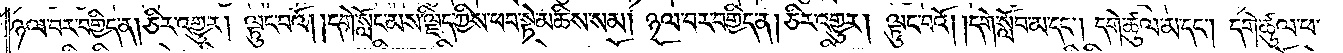ཉལ་བར་བགྱིད་ན། ཅིར་འགྱུར། ལྟུང་བའོ། །དགེ་སློང་མས་ལྗིད་ཀྱིས་ཕབ་སྟེ་མཆིས་སམ། ཉལ་བར་བགྱིད་ན། ཅིར་འགྱུར། ལྟུང་བའོ། །དགེ་སློབ་མ་དང༌། དགེ་ཚུལ་མ་དང༌། དགེ་ཚུལ་ཕ་
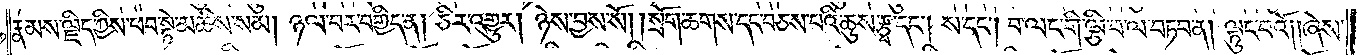རྣམས་ལྗིད་ཀྱིས་ཕབ་སྟེ་མཆིས་སམ། ཉལ་བར་བགྱིད་ན། ཅིར་འགྱུར། ཉེས་བྱས་སོ། །སྲོག་ཆགས་དང་བཅས་པའི་ཆུས་རྩྭ་དང༌། ས་དང༌། བ་ལང་གི་ལྕི་བ་ལ་བཏབ་ན། ལྟུང་བའོ། །ཞེས་
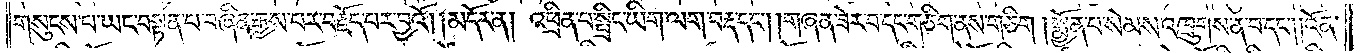གསུངས་པ་ཡང་བསྟན་པ་བཞིན་རྒྱས་པར་བརྗོད་པར་བྱའོ། །མདོར་ན། འཕྲིན་པ་སྤྲིང་ཡིག་ལག་བརྡ་དང༌། །གཞན་ཟེར་བ་དང་གཅིག་ནས་གཅིག། །སྨྱོན་པ་སེམས་འཁྲུགས་ན་བ་དང༌། །འོན་
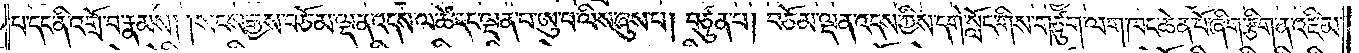པ་དང་ནི་འགྲོ་བ་རྣམས། །སངས་རྒྱས་བཅོམ་ལྡན་འདས་ལ་ཚེ་དང་ལྡན་པ་ཨུ་པ་ལིས་ཞུས་པ། བཙུན་པ། བཅོམ་ལྡན་འདས་ཀྱིས་དགེ་སློང་གིས་གཙུག་ལག་ཁང་ཆེན་པོ་ཞིག་རྩིག་ན་འཇིམ་
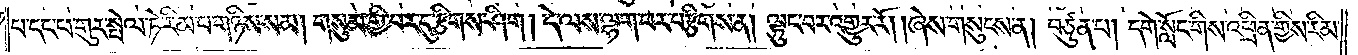པ་དང་ཕ་གུར་སྤེལ་ཏེ་རིམ་པ་གཉིས་སམ། གསུམ་གྱི་བར་དུ་རྩིགས་ཤིག །དེ་ལས་ལྷག་པར་བརྩིགས་ན། ལྟུང་བར་འགྱུར་རོ། །ཞེས་གསུངས་ན། བཙུན་པ། དགེ་སློང་གིས་འཕྲིན་གྱིས་རིམ་
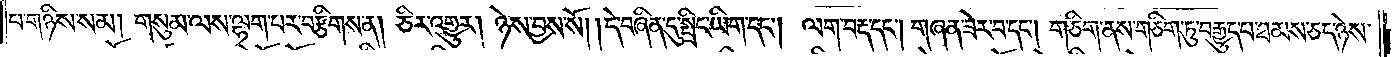པ་གཉིས་སམ། གསུམ་ལས་ལྷག་པར་བརྩིགས་ན། ཅིར་འགྱུར། ཉེས་བྱས་སོ། །དེ་བཞིན་དུ་སྤྲིང་ཡིག་དང༌། ལག་བརྡ་དང༌། གཞན་ཟེར་བ་དང༌། གཅིག་ནས་གཅིག་ཏུ་བརྒྱུད་པ་ཐམས་ཅད་ཉེས་
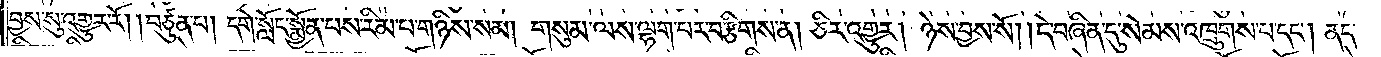བྱས་སུ་འགྱུར་རོ། །བཙུན་པ། དགེ་སློང་སྨྱོན་པས་རིམ་པ་གཉིས་སམ། གསུམ་ལས་ལྷག་པར་བརྩིགས་ན། ཅིར་འགྱུར། ཉེས་བྱས་སོ། །དེ་བཞིན་དུ་སེམས་འཁྲུགས་པ་དང༌། ནད་
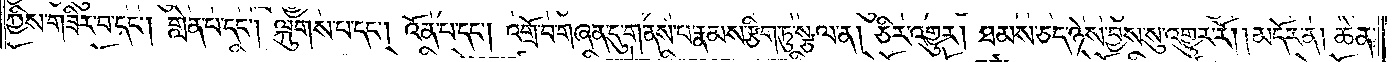ཀྱིས་གཟིར་བ་དང༌། གླེན་པ་དང༌། ལྐུགས་པ་དང༌། འོན་པ་དང༌། འགྲོ་བ་གཞན་དུ་གནས་པ་རྣམས་རྩིག་ཏུ་སྩལ་ན། ཅིར་འགྱུར། ཐམས་ཅད་ཉེས་བྱས་སུ་འགྱུར་རོ།    །མདོར་ན། ཆེན་
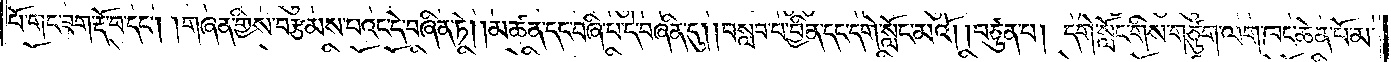པོ་གང་ཟག་རྡོ་བ་དང༌། །གཞན་གྱིས་བརྩམས་པའང་དེ་བཞིན་ཏེ། །མཚན་དང་བཞི་པ་དེ་བཞིན་དུ། །བསླབ་པ་བྱིན་དང་དགེ་སློང་མའོ། །བཙུན་པ། དགེ་སློང་གིས་གཙུག་ལག་ཁང་ཆེན་པོ་མ་
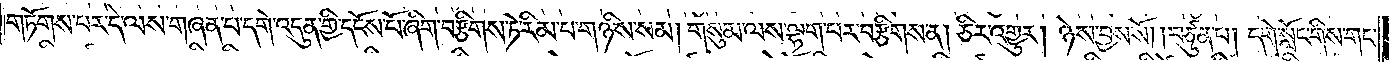གཏོགས་པར་དེ་ལས་གཞན་པ་དགེ་འདུན་གྱི་དངོས་པོ་ཞིག་བརྩིགས་ཏེ་རིམ་པ་གཉིས་སམ། གསུམ་ལས་ལྷག་པར་བརྩིགས་ན། ཅིར་འགྱུར། ཉེས་བྱས་སོ། །བཙུན་པ། དགེ་སློང་གིས་གང་
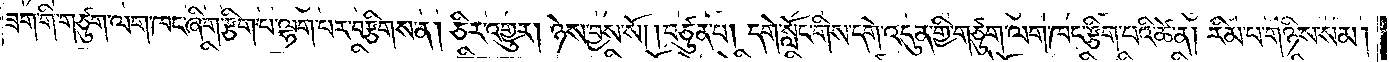ཟག་གི་གཙུག་ལག་ཁང་ཞིག་རྩིག་པ་ལྷག་པར་བརྩིགས་ན། ཅིར་འགྱུར། ཉེས་བྱས་སོ། །བཙུན་པ། དགེ་སློང་གིས་དགེ་འདུན་གྱི་གཙུག་ལག་ཁང་རྩིག་པའི་ཚེ་ན། རིམ་པ་གཉིས་སམ།
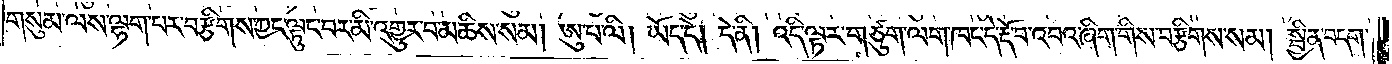གསུམ་ལས་ལྷག་པར་བརྩིགས་ཀྱང་ལྟུང་བར་མི་འགྱུར་བ་མཆིས་སམ། ཨུ་པ་ལི། ཡོད་དེ། དེ་ནི། འདི་ལྟར་གཙུག་ལག་ཁང་དེ་རྡོ་བ་འབའ་ཞིག་གིས་བརྩིགས་སམ། སྦྱིན་བདག་
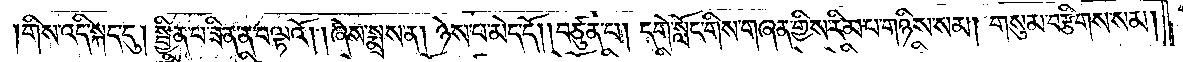།གིས་འདི་སྐད་དུ། སྦྱིན་པ་ཟིན་ན་བལྟའོ། །ཞེས་སྨྲས་ན། ཉེས་པ་མེད་དོ། །བཙུན་པ། དགེ་སློང་གིས་གཞན་གྱིས་རིམ་པ་གཉིས་སམ། གསུམ་བརྩིགས་སམ།
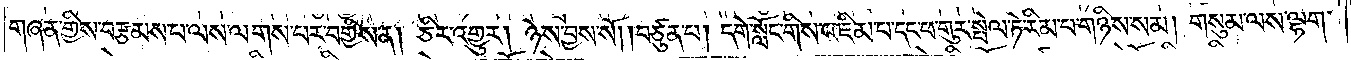གཞན་གྱིས་བརྩམས་པ་ལས་ལགས་པར་བགྱིས་ན། ཅིར་འགྱུར། ཉེས་བྱས་སོ། །བཙུན་པ། དགེ་སློང་གིས་འཇིམ་པ་དང་ཕ་གུར་སྤེལ་ཏེ་རིམ་པ་གཉིས་སམ། གསུམ་ལས་ལྷག་
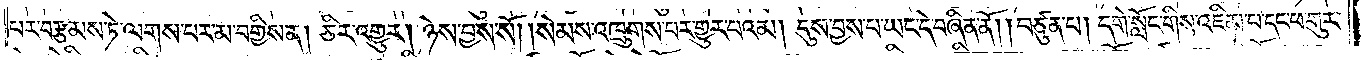པར་བརྩམས་ཏེ་ལགས་པར་མ་བགྱིས་ན། ཅིར་འགྱུར། ཉེས་བྱས་སོ། །སེམས་འཁྲུགས་པར་གྱུར་པའམ། དུས་བྱས་པ་ཡང་དེ་བཞིན་ནོ། །བཙུན་པ། དགེ་སློང་གིས་འཇིམ་པ་དང་ཕ་གུར་
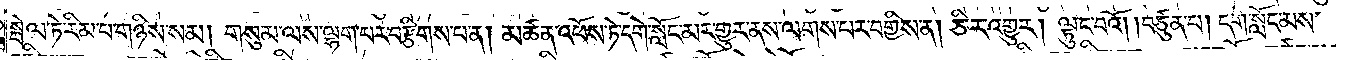སྤེལ་ཏེ་རིམ་པ་གཉིས་སམ། གསུམ་ལས་ལྷག་པར་བརྩིགས་པ་ན། མཚན་འཕོས་ཏེ་དགེ་སློང་མར་གྱུར་ནས་ལགས་པར་བགྱིས་ན། ཅིར་འགྱུར། ལྟུང་བའོ། །བཙུན་པ། དགེ་སློང་མས་
